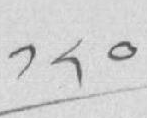༡༨༠
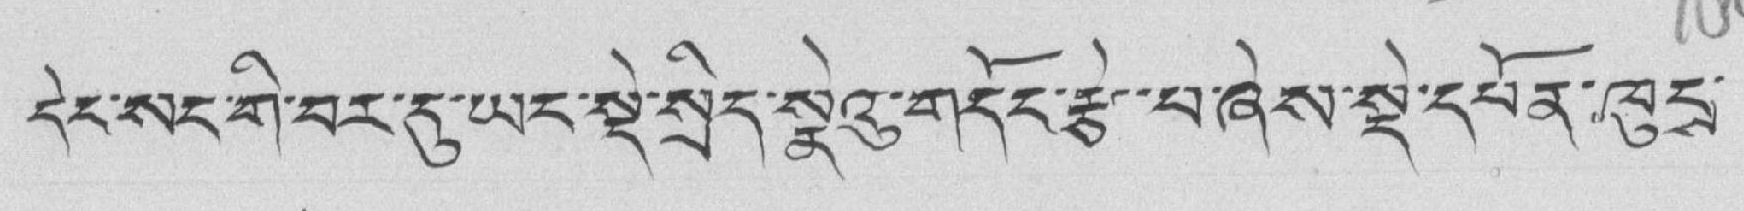དེང་སང་གི་བར་དུ་ཡང་སྡེ་སྲིད་སྣེའུ་གདོང་རྩེ་པ་ཞེས་སྡེ་དཔོན་ཁུངས་
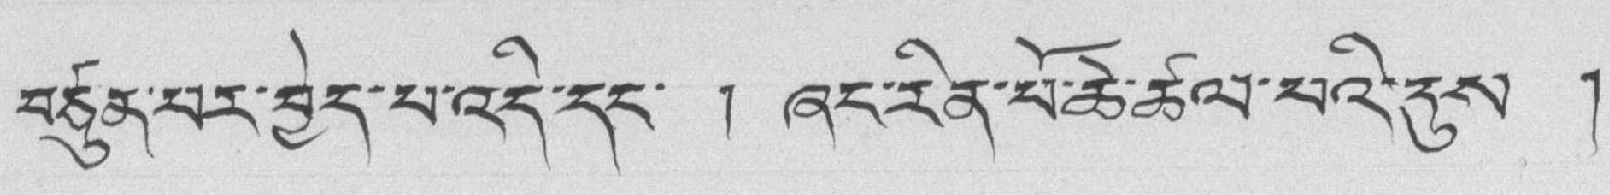བཙུན་པར་བྱེད་པ་འདི་དང་ ། ཞང་རིན་པོ་ཆེ་ཚལ་པའི་དུས །
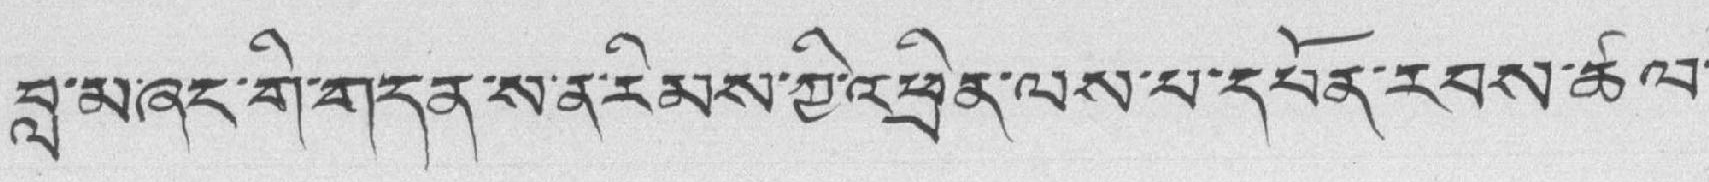བླ་མཞང་གི་གདན་ས་ན་རིམས་ཀྱི་འཕྲིན་ལས་པ་དཔོན་རབས་ཚལ་
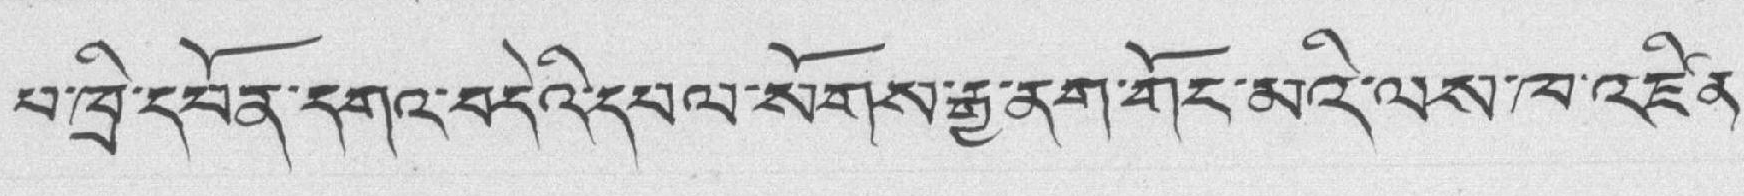པ་ཁྲི་དཔོན་དགའ་བདེའི་དཔལ་སོགས་རྒྱ་ནག་གོང་མའི་ལས་ཁ་འཛིན་
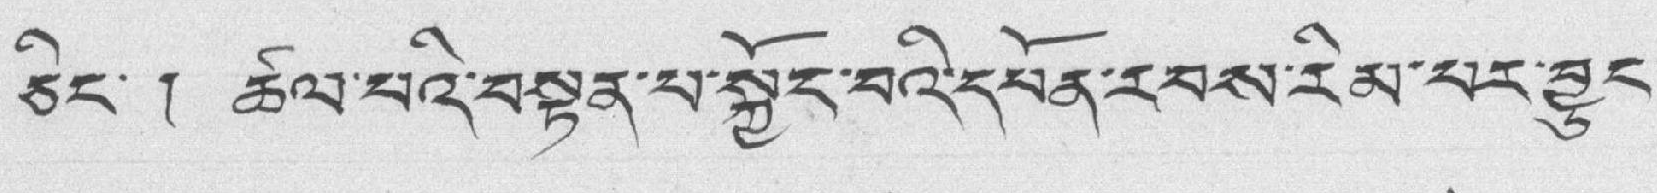ཅིང་ ། ཚལ་པའི་བསྟན་པ་སྐྱོང་བའི་དཔོན་རབས་རིམ་པར་བྱུང་
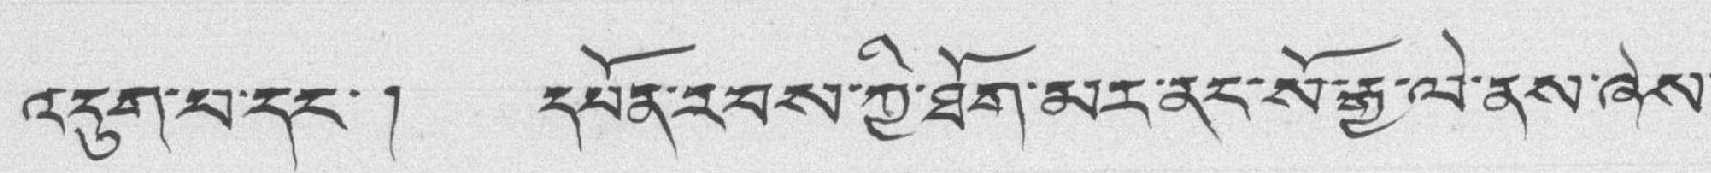འདུག་པ་དང་། དཔོན་རབས་ཀྱི་ཐོག་མར་ནང་སོ་རྒྱ་ལེ་ནས་ཞེས་
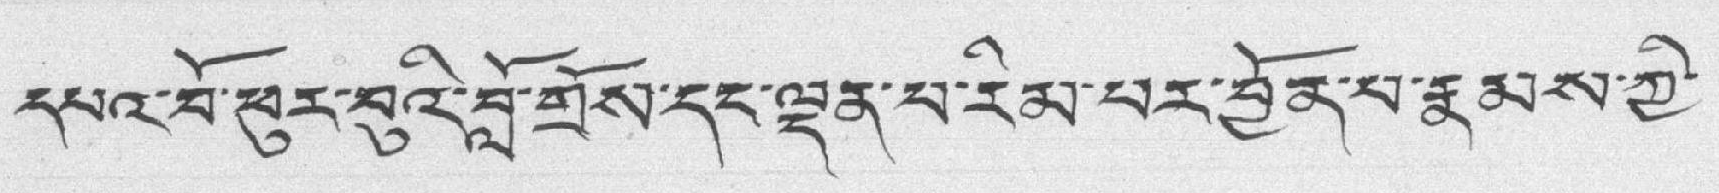དཔའ་བོ་ཕུར་བུའི་བློ་གྲོས་དང་ལྡན་པ་རིམ་པར་བྱོན་པ་རྣམས་ཀྱི་
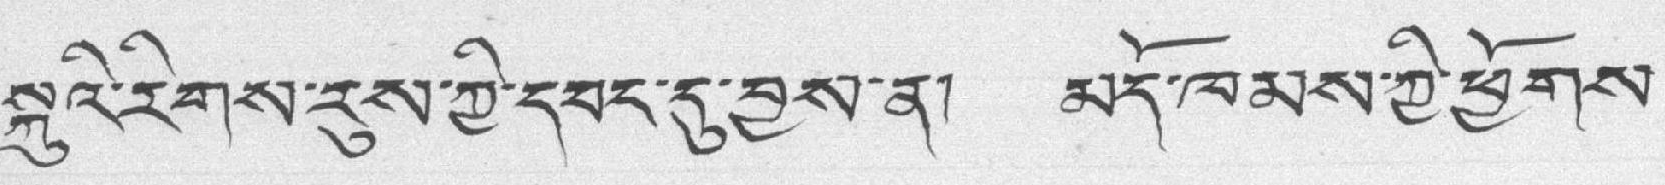སྐུའི་རིགས་རུས་ཀྱི་དབང་དུ་བྱས་ན། མདོ་ཁམས་ཀྱི་ཕྱོགས་
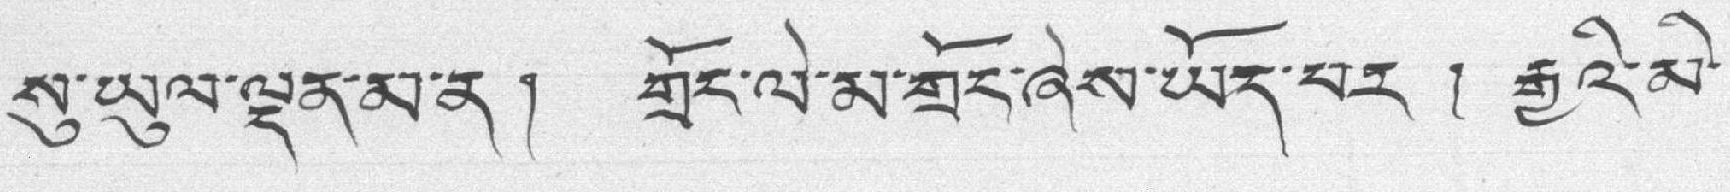སུ་ཡུལ་ལྡན་མ་ན ། གྲོང་ལེ་མ་གྲོང་ཞེས་ཡོད་པར ། རྒྱའི་མི་
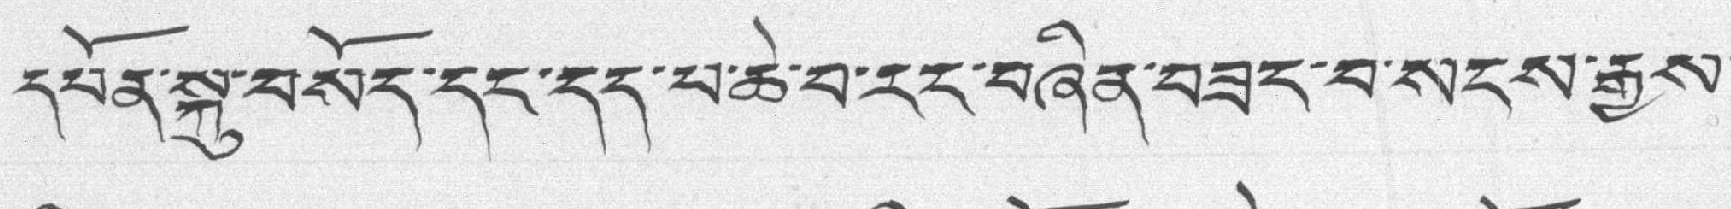དཔོན་སྐུ་བསོད་དང་དད་པ་ཆེ་བ་རང་བཞིན་བཟང་བ་སངས་རྒྱས་
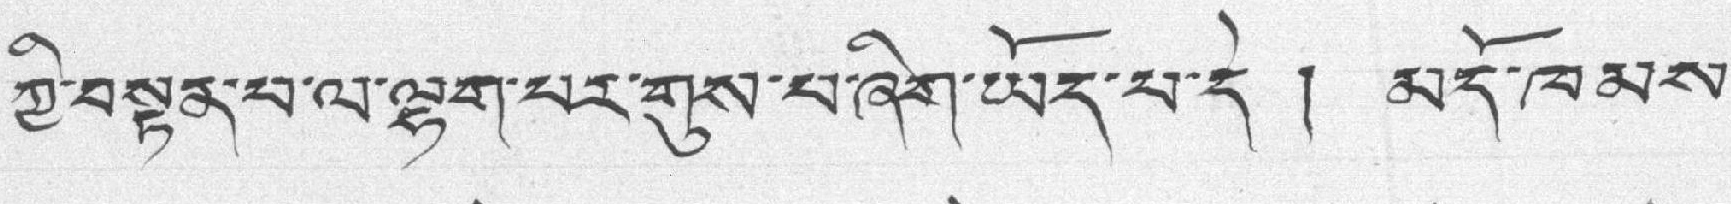ཀྱི་བསྟན་པ་ལ་ལྷག་པར་གུས་པ་ཞིག་ཡོད་པ་དེ ། མདོ་ཁམས་
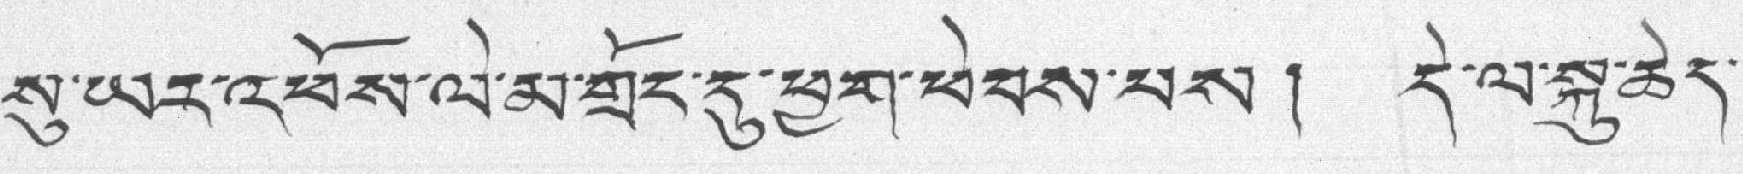སུ་ཡར་འཕོས་ལེ་མ་གྲོང་དུ་ཕྱག་ཕེབས་པས ། དེ་ལ་སྐུ་ཆེད་
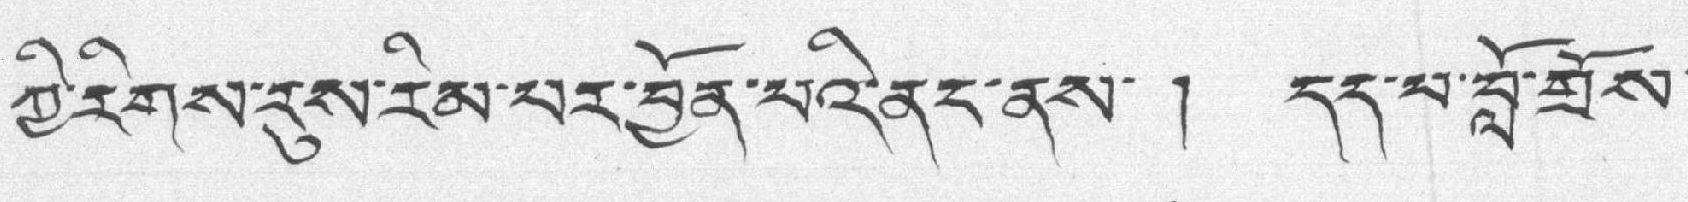ཀྱི་རིགས་རུས་རིམ་པར་བྱོན་པའི་ནང་ནས་ ། དད་པ་བློ་གྲོས་
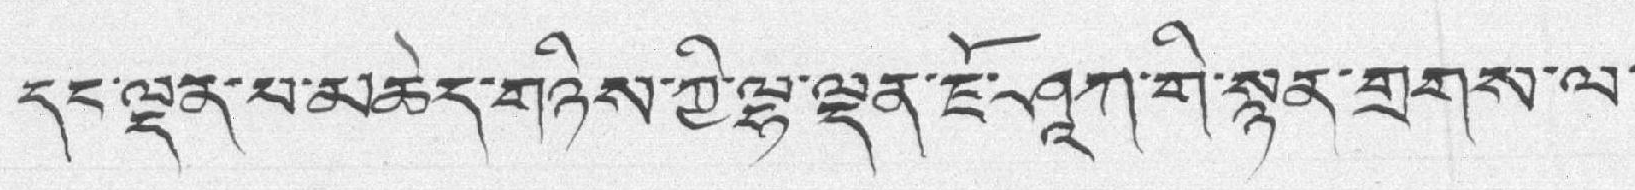དང་ལྡན་པ་མཆེད་གཉིས་ཀྱི་ལྷ་ལྡན་ཇོ་ཤཱཀ་གི་སྙན་གྲགས་ལ་
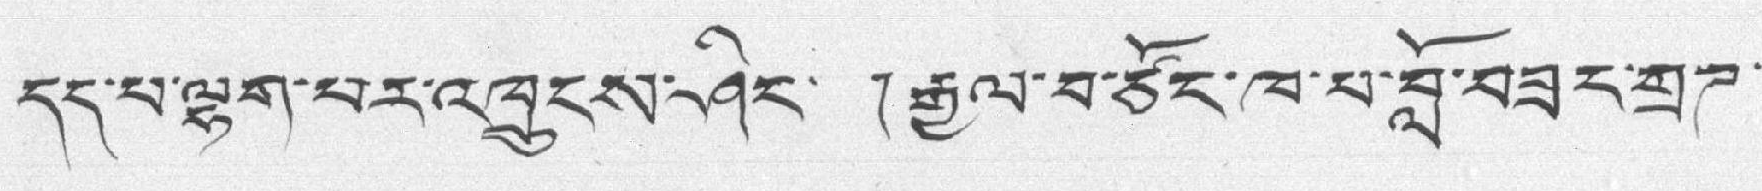དད་པ་ལྷག་པར་འཁྲུངས་ཤིང་ ། རྒྱལ་བ་ཙོང་ཁ་པ་བློ་བཟང་གྲཊ་
